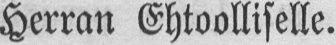Herran Ehtoolliselle.
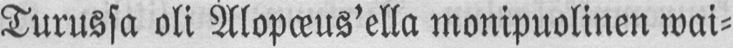Turussa oli Alopœus'ella monipuolinen wai-
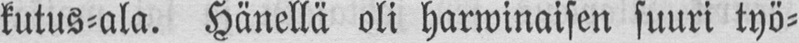kutus-ala. Hänellä oli harwinaisen suuri työ-
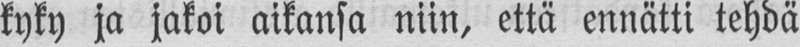kyky ja jakoi aikansa niin, että ennätti tehdä
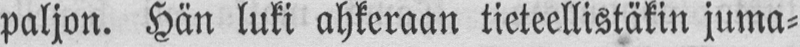paljon. Hän luki ahkeraan tieteellistäkin juma-
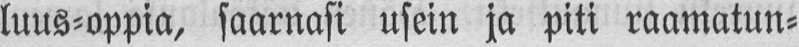luus-oppia, saarnasi usein ja piti raamatun-
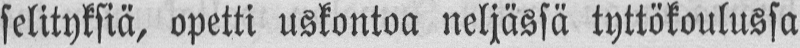selityksiä, opetti uskontoa neljässä tyttökoulussa
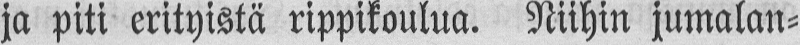ja piti erityistä rippikoulua. Niihin jumalan-
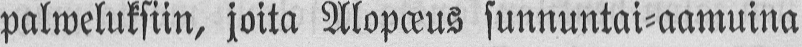palweluksiin, joita Alopœus sunnuntai-aamuina
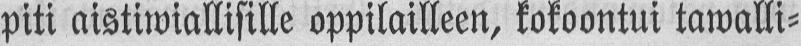piti aistiwiallisille oppilailleen, kokoontui tawalli-
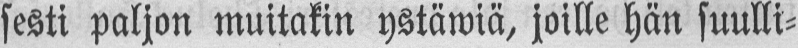sesti paljon muitakin ystäwiä, joille hän suulli-
